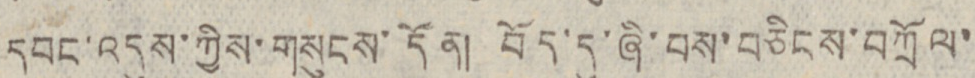དབང་འདུས་ཀྱིས་གསུངས་དོན། བོད་དུ་ཞི་བས་བཅིངས་བཀྲོལ་
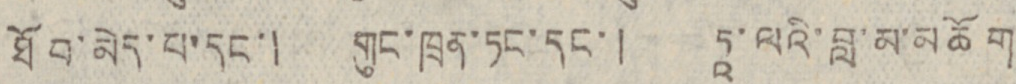ཐོབ་མེད་པ་དང་། གུང་ཁྲན་ཏང་དང་། ཏཱ་ལའི་བླ་མ་མཆོག
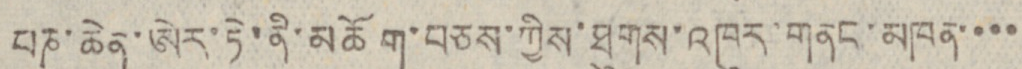པཎ་ཆེན་ཨེར་ཏེ་ནི་མཆོག་བཅས་ཀྱིས་ཐུགས་འཁུར་གནང་མཁན་་་་
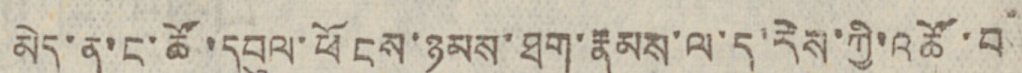མེད་ན་ང་ཚོ་དབུལ་ཕོངས་ཉམས་ཐག་རྣམས་ལ་ད་རེས་ཀྱི་འཚོ་བ་
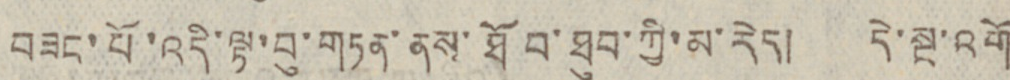བཟང་པོ་འདི་ལྟ་བུ་གཏན་ནས་ཐོབ་ཐུབ་ཀྱི་མ་རེད། དེ་སྔ་འགོ
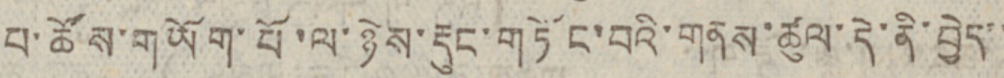པ་ཚོས་གཡོག་པོ་ལ་ཉེས་རྡུང་གཏོང་བའི་གནས་ཚུལ་དེ་ནི་བྱེད་་
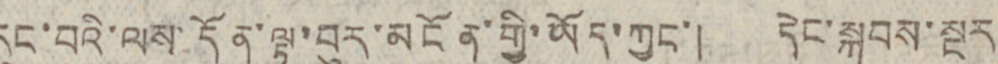རུང་བའི་ལས་དོན་ལྟ་བུར་མངོན་གྱི་ཡོད་ཀྱང་། དེང་སྐབས་སྔར
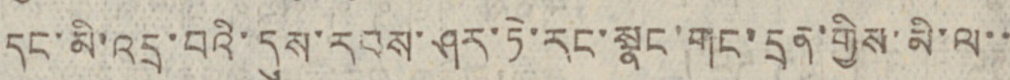དང་མི་འདྲ་བའི་དུས་རབས་ཤར་ཏེ་རང་སྣང་གང་དྲན་གྱིས་མི་ལ་་
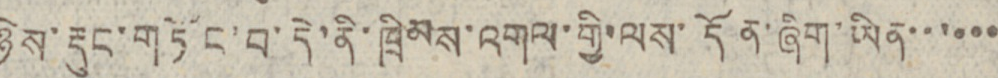ཉེས་རྡུང་གཏོང་བ་དེ་ནི་ཁྲིམས་འགལ་གྱི་ལས་དོན་ཞིག་ཡིན་་་་་་
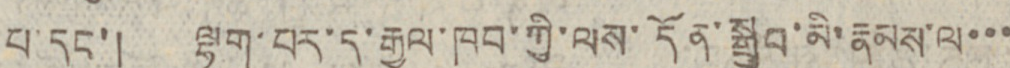པ་དང་། ལྷག་པར་དུ་རྒྱལ་ཁབ་ཀྱི་ལས་དོན་སྒྲུབ་མི་རྣམས་ལ་་་
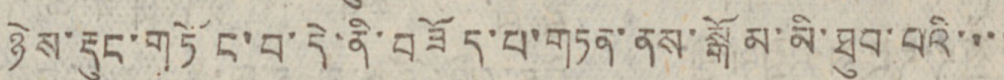ཉེས་རྡུང་གཏོང་བ་དེ་ནི་བཟོད་པ་གཏན་ནས་སྒོམ་མི་ཐུབ་པའི་་་་
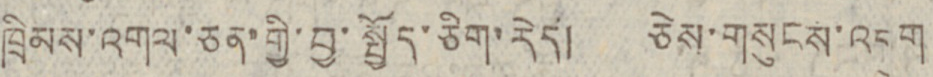ཁྲིམས་འགལ་ཅན་གྱི་བྱ་སྤྱོད་ཅིག་རེད། ཅེས་གསུངས་འདུག
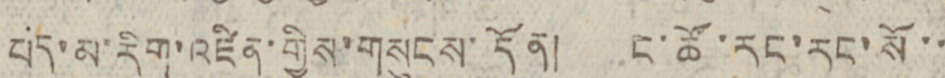པད་མ་རིག་འཛིན་གྱིས་གསུངས་དོན། ང་ཚོ་རང་རང་སོ་་
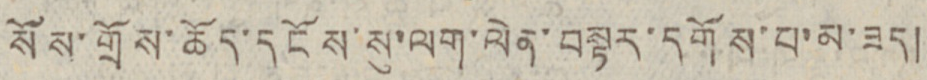སོས་གྲོས་ཆོད་དངོས་སུ་ལག་ལེན་བསྟར་དགོས་པ་མ་ཟད།
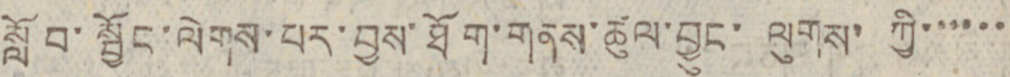སློབ་སྦྱོང་ལེགས་པར་བྱས་ཐོག་གནས་ཚུལ་བྱུང་ ལུགས་ ཀྱི་་་་་་
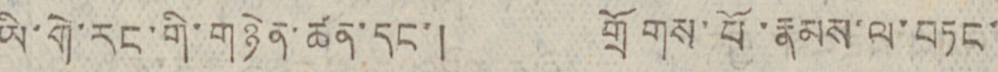ཡི་གེ་རང་གི་གཉེན་ཚན་དང་། གྲོགས་པོ་རྣམས་ལ་བཏང་
